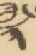༣
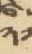༢༡
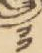༡༡
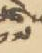༡༧
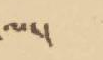ལ་།
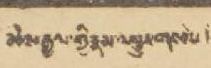མེས་རྒྱལ་གྱི་རྣམ་འགྱུར་གསལ་།
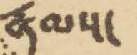རྣམས་
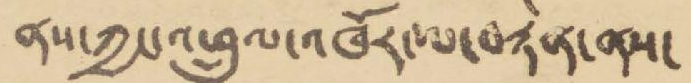ནས་ཀྱང་འཕྲུལ་འཁོར་ལ་བརྟེན་ནས་
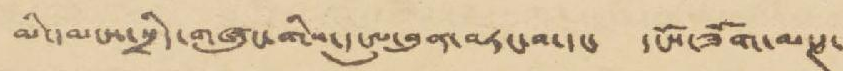མི་དམངས་སྲིད་གཞུང་གིས་དངུལ་བུན་བཏང་བ་དང་ དངོས་ཟོག་མ་ཊ་
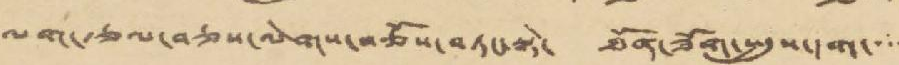ལག་རྩལ་བཅས་ལེགས་བཅོས་བཏང་སྟེ་ ཐོན་ཟོག་སྤུས་དག་་་་
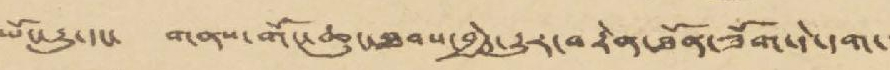ཡོང་རྒྱུ་དང་ གནས་གོང་ཆུང་ཐབས་བྱེད་རྒྱུར་བརྟེན་ཐོན་ཟོག་དེ་དག་་
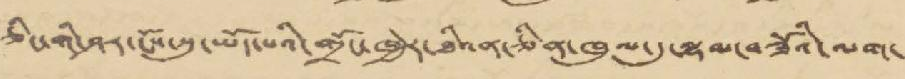ཅིང་གི་ཤར་ངོས་སུ་ཡོད་པའི་གྲོང་ཁྱེར་ཐའིན་ཅིན་ཁུལ་དུ་ལྷམ་བཟོའི་ལག་
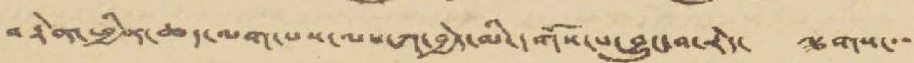བརྟེན་ཕྱིན་ཆད་ལག་པས་ལས་ཀ་བྱེད་མི་དགོས་པ་བྱུང་བ་རེད་ ལྕགས་་་
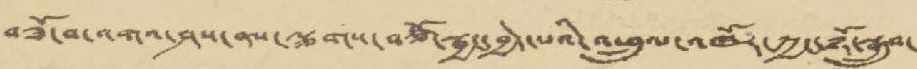བཟོ་བ་འགའ་ཤས་ནས་ལྕགས་བཙོ་སྦྱང་བྱེད་པའི་འཕྲུལ་འཁོར་ཀྱང་ཉོ་སྒྲུབ་
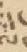ལ་
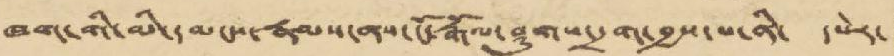ཁག་གི་མི་དམངས་རྣམས་ནས་ངོ་རྒོལ་ཤུགས་དྲག་བྱས་པ་ནི་ དཔེར་
